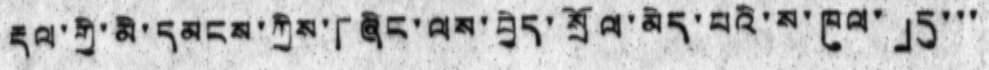རྡལ་གྱི་མི་དམངས་ཀྱིས་「ཞིང་ལས་བྱེད་སྲོལ་མེད་པའི་ས་ཁུལ་」དུ་་་
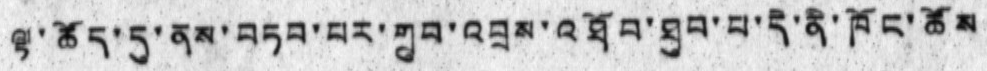ལྟ་ཚོད་དུ་ནས་བཏབ་པར་གྲུབ་འབྲས་འཐོབ་ཐུབ་པ་དེ་ནི་ཁོང་ཚོས
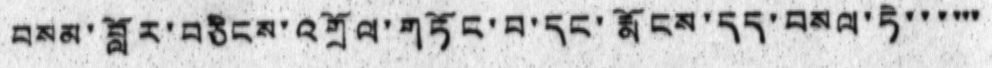བསམ་བློར་བཅིངས་འགྲོལ་གཏོང་བ་དང་རྨོངས་དད་བསལ་ཏེ་་་་་་
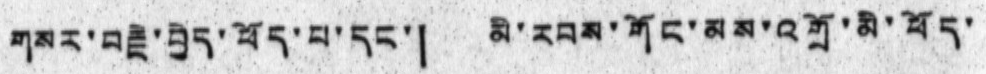གསར་བརྗེ་བྱེད་ཕོད་པ་དང་། མི་རབས་གོང་མས་འགྲོ་མི་ཕོད་
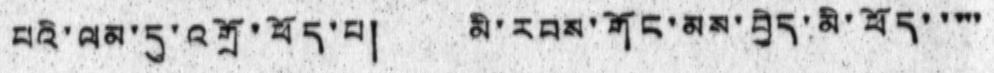པའི་ལམ་དུ་འགྲོ་ཕོད་པ། མི་རབས་གོང་མས་བྱེད་མི་ཕོད་་་་་
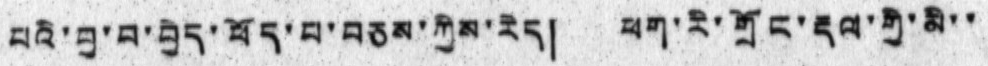པའི་བྱ་བ་བྱེད་ཕོད་པ་བཅས་ཀྱིས་རེད། ཕག་རི་གྲོང་རྡལ་གྱི་མི་་
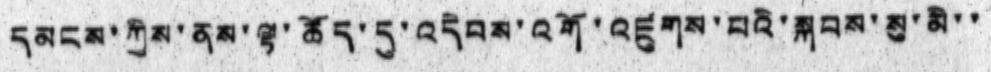དམངས་ཀྱིས་ནས་ལྟ་ཚོད་དུ་འདེབས་འགོ་འཛུགས་པའི་སྐབས་སུ་མི་་
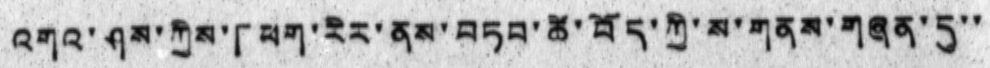འགའ་ཤས་ཀྱིས་「ཕག་རིར་ནས་བཏབ་ཚེ་བོད་ཀྱི་ས་གནས་གཞན་དུ་་
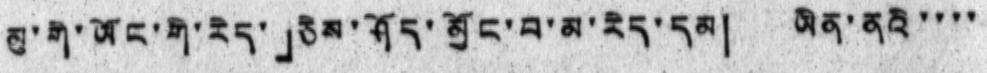མུ་གི་ཡོང་གི་རེད་」ཅེས་ཤོད་མྱོང་བ་མ་རེད་དམ། ཡིན་ནའི་་་་
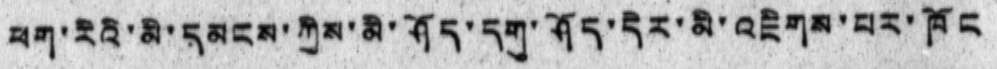ཕག་རིའི་མི་དམངས་ཀྱིས་མི་ཤོད་དགུ་ཤོད་དེར་མི་འཇིགས་པར་ཁོང
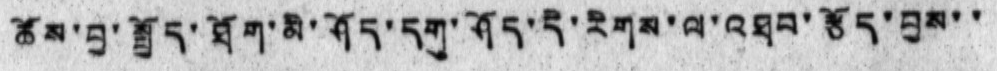ཚོས་བྱ་སྤྱོད་ཐོག་མི་ཤོད་དགུ་ཤོད་དེ་རིགས་ལ་འཐབ་རྩོད་བྱས་་
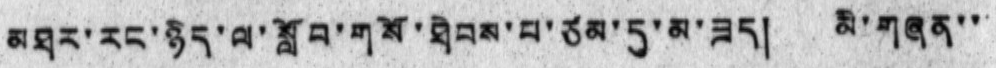མཐར་རང་ཉིད་ལ་སློབ་གསོ་ཐེབས་པ་ཙམ་དུ་མ་ཟད། མི་གཞན་་
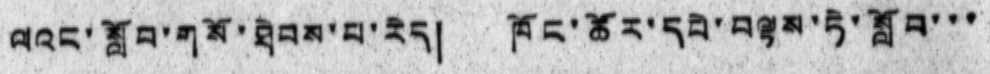ལའང་སློབ་གསོ་ཐེབས་པ་རེད། ཁོང་ཚོར་དཔེ་བལྟས་ཏེ་སློབ་་་
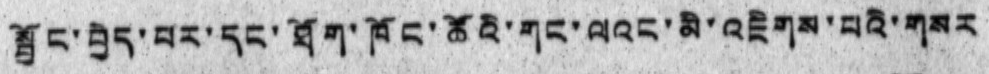སྦྱོང་བྱེད་པར་དང་ཐོག་ཁོང་ཚོའི་གང་ལའང་མི་འཇིགས་པའི་གསར
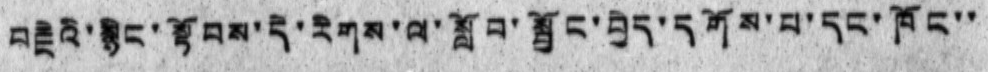བརྗེའི་སྙིང་སྟོབས་དེ་རིགས་ལ་སློབ་སྦྱོང་བྱེད་དགོས་པ་དང་ཁོང་་
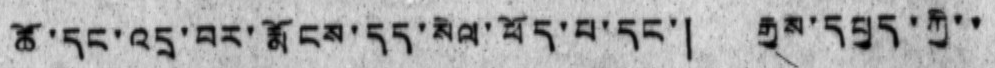ཚོ་དང་འདྲ་བར་རྨོངས་དད་སེལ་ཕོད་པ་དང་། རྒྱས་དཔྱད་ཀྱི་་
